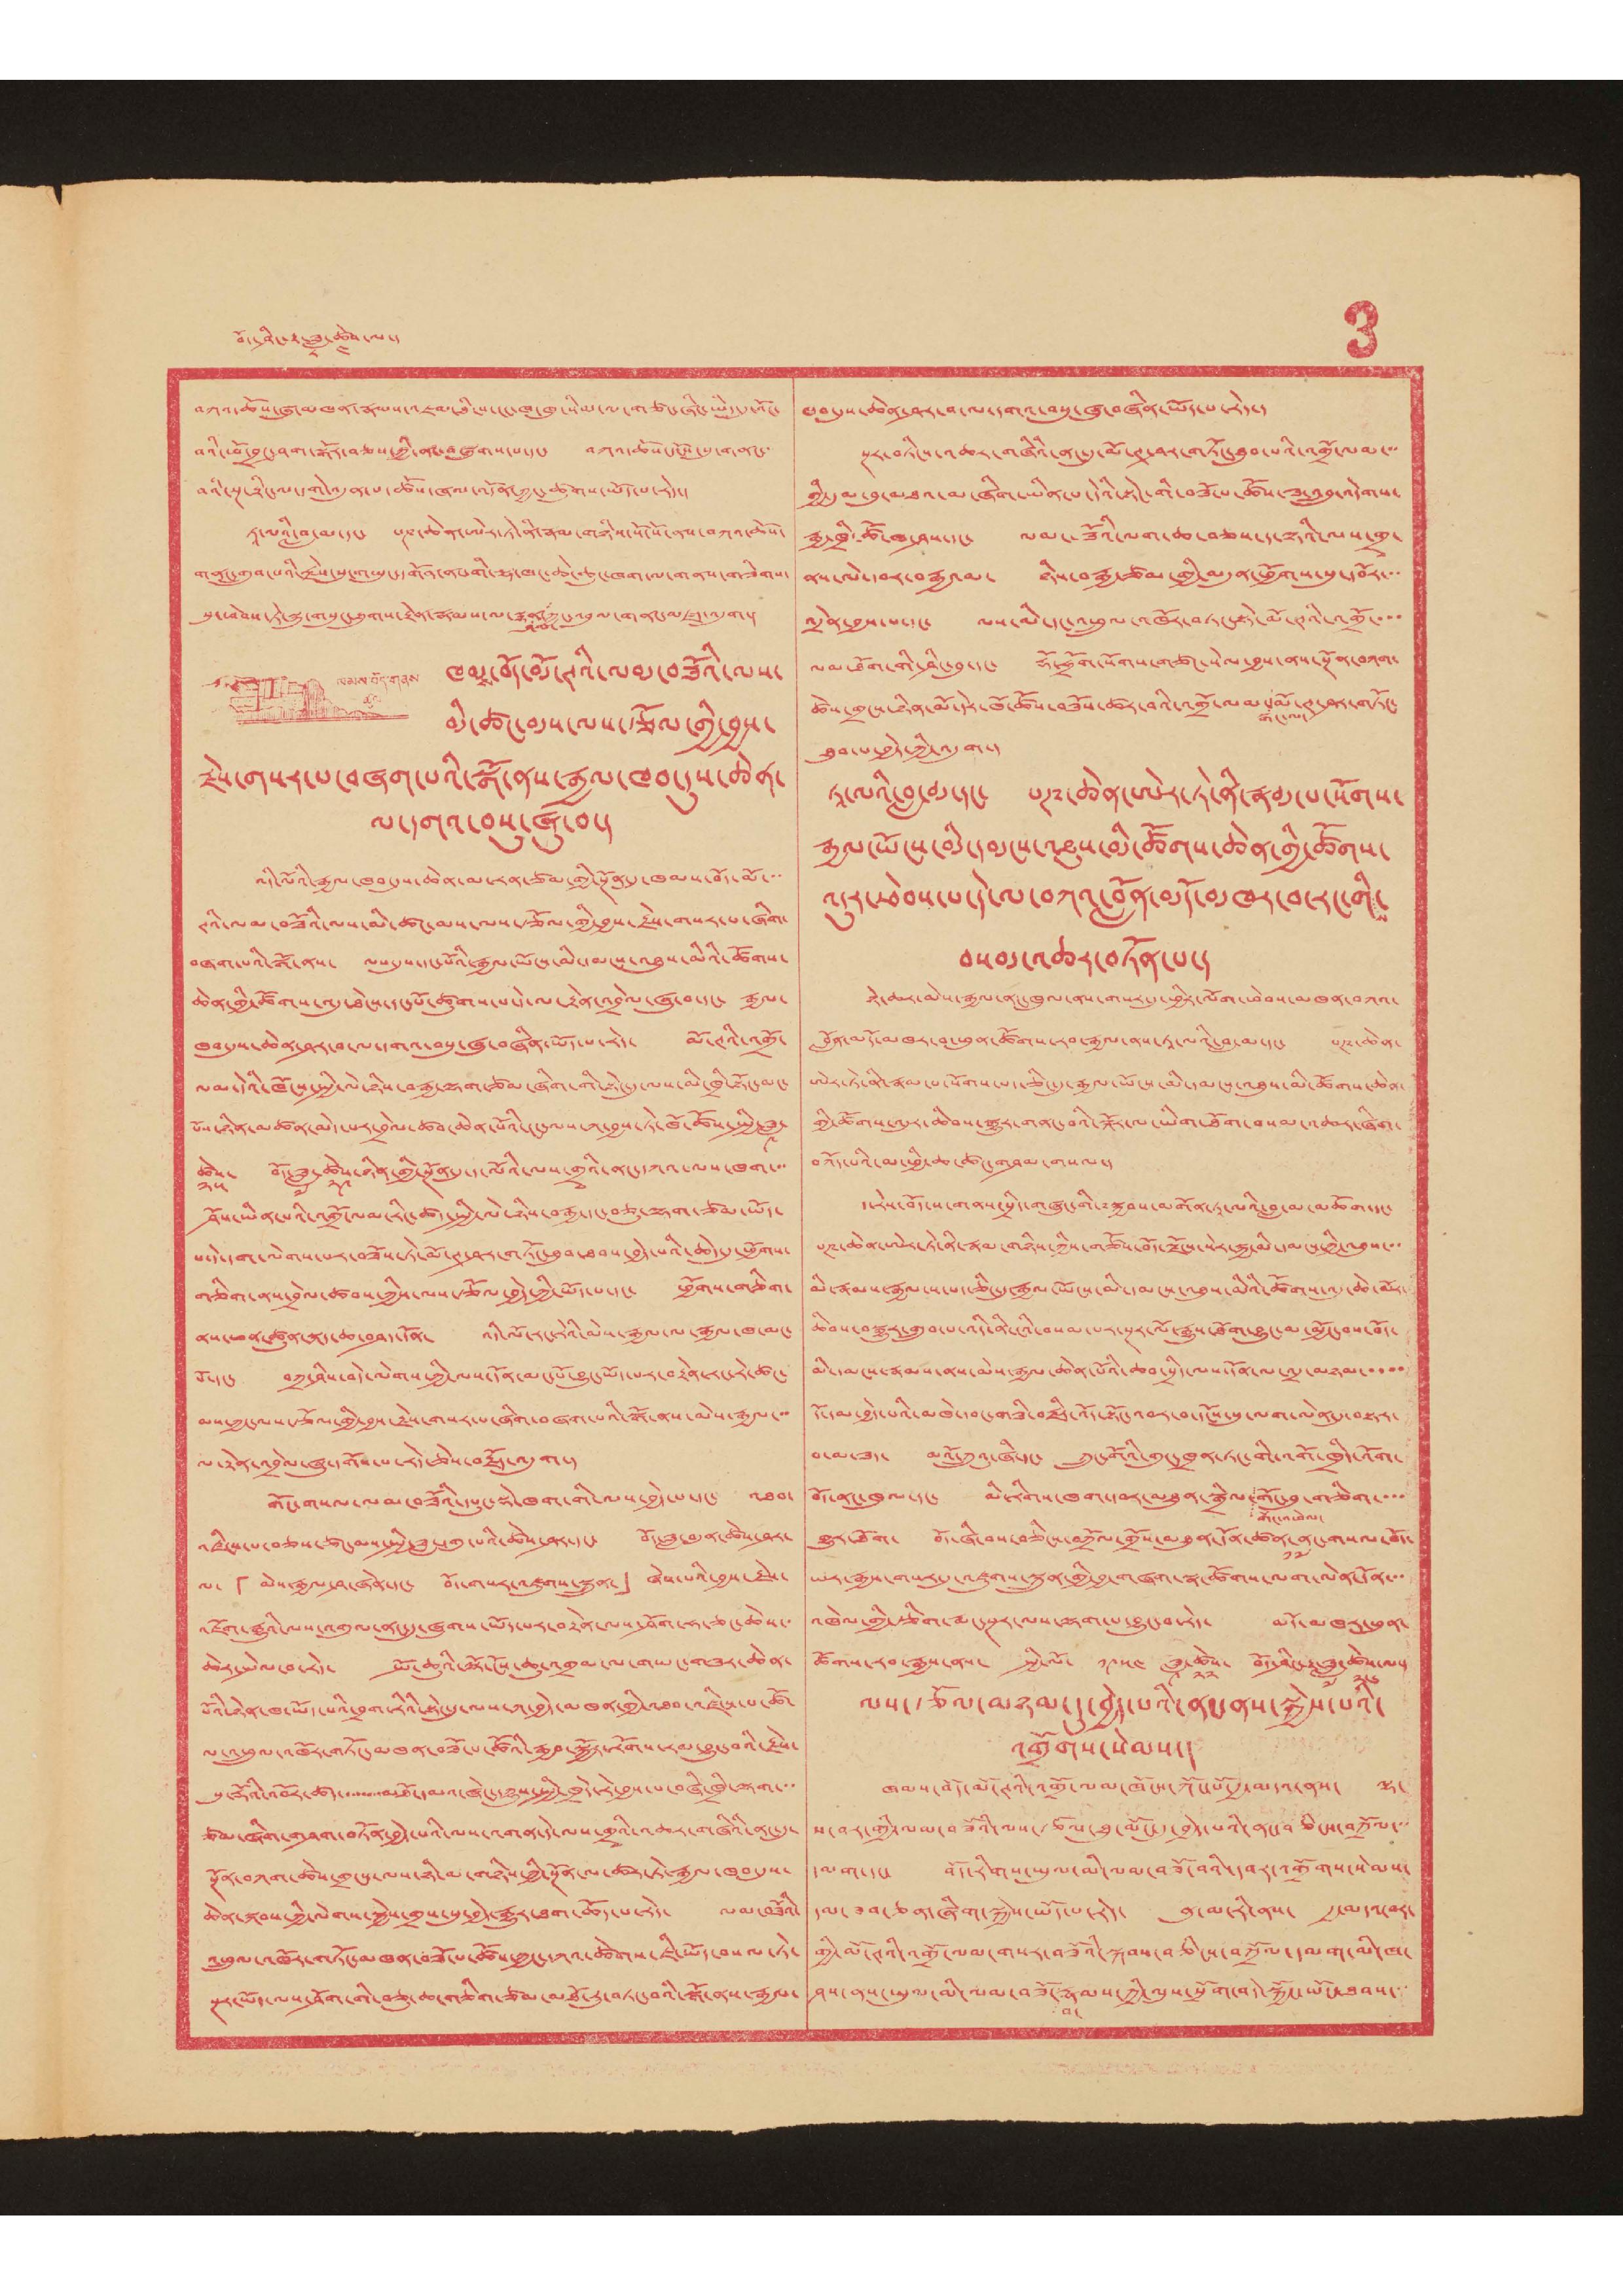བོད་ཤིང་རྟ་ཟླ་
༨
ཚེས་
༤
ལ་། 3
བཀའ་ཆོས་ཞུ་མཁན་རྣམས་འཇམ་ཐིངས་ངང་ཁ་ཁུ་སིམ་ལ་གཙང་ཞིང་ཡིད་དུ་འོང་
བའི་ཕོ་བྲང་ཤག་སྒོར་བཅས་ཀྱི་ནང་བཞུགས་པ་དང་ བཀའ་ཆོས་དངོས་སུ་གནང་
བའི་སྔ་རྟིང་ལ་དགེ་འདུན་པ་ཚོས་ཞལ་འདོན་ཀྱང་ཚུགས་ཡོད་པ་རེད་།
ཏཱ་ལའི་བླ་མ་དང་ པཎ་ཆེན་ཨེར་ཏེ་ནི་རྣམ་གཉིས་སོ་སོ་ནས་བཀའ་ཆོས་
གནང་གྲུབ་པའི་རྗེས་སུ་གཡུང་དགོན་ནང་གི་ལྷ་ཁང་ཆེ་ཆུང་ཁག་ལ་གནས་གཟིགས་
སུ་ཕེབས་ཏེ་སྐུ་གསུང་ཐུགས་རྟེན་རྣམས་ལ་སྙན་
ཤམ་
ཀྱང་འབུལ་གནང་མཛད་འདུག་།
ཁམས་བོད་གནས་
ཚུལ་
ཁམས་བོད་མོ་ཊའི་ལམ་བཟོའི་ལས་
མི་ཚང་མས་ལས་རྩོལ་གྱི་བྱས་
རྗེས་གསར་པ་བཞག་པའི་སྒོ་ནས་རྒྱལ་ཁབ་དུས་ཆེན་
ལ་དགའ་བསུ་ཞུ་བ་།
འདི་ལོའི་རྒྱལ་ཁབ་དུས་ཆེན་མ་རན་ཙམ་གྱི་སྔོན་དུ་ཁམས་བོད་མོ་་་
ཊའི་ལམ་བཟོའི་ལས་མི་ཚང་མས་ལས་རྩོལ་གྱི་བྱས་རྗེས་གསར་པ་ཞིག་
བཞག་པའི་སྒོ་ནས་ ལས་དུས་དང་པོའི་རྒྱལ་ཡོངས་མི་དམངས་འཐུས་མིའི་ཚོགས་
ཆེན་གྱི་ཚོགས་འདུ་ཐེངས་དང་པོ་ཚུགས་པ་དེ་ལ་རྟེན་འབྲེལ་ཞུ་བ་དང་ རྒྱལ་
ཁབ་དུས་ཆེན་ཤར་བ་དགའ་བསུ་ཞུ་བཞིན་ཡོད་པ་རེད་ མོ་ཊའི་འགྲོ་
ལམ་དེའི་ཁོངས་སྤྱི་ལེ་ཉིས་བརྒྱ་ལྷག་ཙམ་ཞིག་གི་སྟེང་དུ་ལས་མི་ཁྲི་སྟོང་མང་
པོས་ཉིན་མཚན་མེད་པར་བྲེལ་ཚབ་ཆེན་པོའི་ངང་ལས་ཀ་བྱས་ཏེ་ཁོ་ཚོས་སྤྱི་ཟླ་
༩
ཚེས་
༢༥
བོད་ཟླ་
༧
ཚེས་
༢༩
ཉིན་གྱི་སྔོན་དུ་ད་ལོའི་ལས་གྲྭའི་ནང་དཀའ་ལས་ཁག་་་
ཤོས་ཡིན་པའི་འགྲོ་ལམ་རིང་ཚད་སྤྱི་ལེ་ཉིས་བརྒྱ་དང་བཅུ་ལྷག་ཙམ་ཡོད་
པ་དེ་དག་ལེགས་པར་བཟོས་ཏེ་མོ་ཊ་ཤར་གཏོང་ཐུབ་ཐབས་བྱེད་པའི་ཆེད་དུ་ཕྱོགས་
གཅིག་ནས་བྲེལ་ཚབས་ཀྱིས་ལས་རྩོལ་བྱེད་ཀྱི་ཡོད་པ་དང་ ཕྱོགས་གཅིག་
ནས་ཕན་ཚུན་ནད་ཆ་བཤད་དོན་ འདི་ལོ་རང་རེའི་མེས་རྒྱལ་ལ་རྒྱལ་ཁ་མང་
པོ་དང་ བཀྲ་ཤིས་བདེ་ལེགས་ཀྱི་ལས་དོན་མང་པོ་བྱུང་ཡོད་པར་བརྟེན་རང་རེ་ཚང་
མས་ཀྱང་ལས་རྩོལ་གྱི་བྱས་རྗེས་གསར་པ་ཞིག་བཞག་པའི་སྒོ་ནས་མེས་རྒྱལ་་་
ལ་རྟེན་འབྲེལ་ཞུ་དགོས་པ་རེད་ཅེས་བརྗོད་འདུག་།
གོང་གསལ་ལམ་བཟོའི་དཔུང་སྡེ་ཁག་གི་ལས་བྱེད་པ་དང་ འཐབ་
འཛིངས་པ་བཅས་ཚང་མས་སྤྱི་ཟླ་དགུ་པའི་ཚེས་ཤར་དང་ བོད་ཟླ་བདུན་ཚེས་ཤར་
ལ་ 「མེས་རྒྱལ་ཤ་ཞེན་དང་ བོད་གསར་འཛུགས་སྐྲུན་」 ཞེས་པའི་བྱས་རྗེས་
འཇོག་རྒྱུའི་ལས་འགུལ་ནང་དུ་ཞུགས་ཡོད་པར་བརྟེན་ལས་ཤོག་ཧ་ཅང་ཆེས་་
ཆེར་སྤེལ་བ་རེད་ སྤོ་ཆུའི་ལྷོ་ངོས་ཆུ་འགྲམ་ལ་གཡང་གཟར་ཆེན་
པོའི་ཉེན་ཁ་ཡོད་པའི་བྲག་རིའི་སྟེང་དུ་ལས་ཀ་བྱེད་མཁན་གྱི་འཐབ་འཛིངས་པ་ཚོ་
ལ་འཕྲུལ་འཁོར་གཏོང་མཁན་བཟོ་པ་ཚོའི་རྒྱབ་སྐྱོར་རོགས་རམ་བྱུང་བའི་རྗེས་
སུ་རྡོའི་འབོར་ཚད་་་་་མཐོ་དམའ་ཞེང་དཀྱུས་སྤྱི་ཁྲེད་རེ་བྱས་པ་བཞི་ཁྲི་ལྷག་་་
ཙམ་ཞིག་གཤག་བཏོན་བྱེད་པའི་ལས་འགན་དེ་ལས་གྲྭའི་འཆར་གཞིའི་ནང་དུ་
སྔོན་བཀག་ཚེས་གྲངས་ལས་ཉི་མ་གཉིས་ཀྱི་སྔོན་ལ་ཚར་ཏེ་རྒྱལ་ཁབ་དུས་
ཆེན་སྐབས་ཀྱི་ལེགས་སྐྱེས་གྲས་སུ་བྱེད་རྒྱུར་ཐག་ཆོད་པ་རེད་ ལམ་བཟོའི་
འཕྲུལ་འཁོར་གཏོང་མཁན་བཟོ་པ་ཚོས་ཀྱང་དཀའ་ཚེགས་ཇི་ཡོད་བསལ་ཏེ་
སྔར་ཡོད་ལས་ཤོག་གི་བཅུ་ཆ་གཅིག་ཙམ་མཐོ་རུ་བཏང་བའི་སྒོ་ནས་རྒྱལ་
ཁབ་དུས་ཆེན་ཤར་བ་ལ་དགའ་བསུ་ཞུ་བཞིན་ཡོད་པ་རེད་།
སྔར་བཏིངས་འཆར་གཞིའི་ནང་དུ་མོ་ཊ་ཤར་གཏོང་ཐུབ་པའི་འགྲོ་ལམ་་་
གྱི་དུམ་བུ་མཐའ་མ་ཞིག་ཡིན་པ་དེའི་སྟེང་གི་བཟོ་པ་ཚོས་ཟ་འབྲུ་འདེགས་
རྒྱ་ཁྲི་ཚོ་ཁ་ཤས་དང་ ལམ་ཟོའི་ལག་ཆ་བཅས་ད་ལྟའི་ལས་གྲྭ་
ནས་ལེ་དབར་བརྒྱའམ་ ཉིས་བརྒྱ་ཙམ་གྱི་མདུན་ཕྱོགས་སུ་དབོར་་་
འདྲེན་བྱས་པ་དང་ ལས་མི་དང་འཕྲུལ་འཁོར་བཏང་སྟེ་མོ་ཊའི་འགྲོ་་་་
ལམ་ཐོག་གི་ཤིང་བུ་དང་ རྡོ་ཧྲོག་སོགས་གཙང་སེལ་བྱས་ནས་སྔོན་བཀག་
ཚེས་གྲངས་ཉིན་མོ་དེར་ཁོ་ཚོས་བཟོས་ཚར་བའི་འགྲོ་ལམ་
སྒང་ལ་
མོ་ཊ་ཤར་གཏོང་
ཐུབ་པ་བྱེད་ཀྱི་འདུག་།
ཏཱ་ལའི་བླ་མ་དང་ པཎ་ཆེན་ཨེར་ཏེ་ནི་རྣམ་པ་སོགས་
རྒྱལ་ཡོངས་མི་དམངས་འཐུས་མི་ཚོགས་ཆེན་གྱི་ཚོགས་
འདུར་ཕེབས་པ་དེ་ལ་བཀའ་བློན་མདོ་མཁར་བ་རང་གི་
བསམ་འཆར་བཏོན་པ་།
ཉེ་ཆར་མེས་རྒྱལ་ནང་ཁུལ་ནས་གསར་དུ་ཕྱིར་ལོག་ཕེབས་མཁན་བཀའ་
བློན་མདོ་མཁར་བ་ཕུན་ཚོགས་རབ་རྒྱལ་ནས་ཏཱ་ལའི་བླ་མ་དང་ པཎ་ཆེན་
ཨེར་ཏེ་ནི་རྣམ་པ་སོགས་པད་ཅིང་དུ་རྒྱ་ཡོངས་མི་དམངས་འཐུས་མི་ཚོགས་ཆེན་
གྱི་ཚོགས་འདུར་ཆིབས་སྒྱུར་གནང་བའི་སྐོར་ལ་ཡིག་ཐོག་བསམ་འཆར་ཞིག་
བཀོད་པའི་མ་ཕྱི་ཆ་ཚང་གཤམ་གསལ་།
ད་རེས་བོད་ས་གནས་སྲིད་གཞུང་གི་༸སྐྱབས་མགོན་ཏཱ་ལའི་བླ་མ་མཆོག་དང་
པཎ་ཆེན་ཨེར་ཏེ་ནི་རྣམ་གཉིས་ཀྱིས་གཙོས་བོད་ལྗོངས་སེར་སྐྱ་མི་དམངས་ཀྱི་འཐུས་་་
མི་རྣམས་རྒྱལ་ས་པད་ཅིང་དུ་རྒྱལ་ཡོངས་མི་དམངས་འཐུས་མིའི་ཚོགས་འདུ་ཆེ་མོར་
ཆིབས་བསྒྱུར་གྲུབ་པ་འདི་ནི་ངའི་བསམ་པར་སྔར་ལོ་རྒྱུས་ཐོག་བྱུང་མ་མྱོང་བས་བོད་
མི་དམངས་རྣམས་ནས་མེས་རྒྱལ་ཆེན་པོའི་ཆབ་སྲིད་ལས་དོན་ལ་འདྲ་མཉམ་་་་་
དོ་དམ་བྱེད་པའི་མཁེ་དབང་གཟི་བརྗིད་སྟོང་འབར་བ་དངོས་སུ་ལག་ལེན་དུ་བསྟར་
བ་མ་ཟད་ མའོ་ཀྲུའུ་ཞི་དང་ ཀྲུང་གོའི་གུང་ཁྲན་ཏང་གི་འགོ་ཁྲིད་འོག་
བོད་ནང་ཁུལ་དང་ མི་རིགས་ཁག་དབར་མཐུན་སྒྲིལ་
གོང་འཕེལ་
གོང་བུ་གཅིག་་་་
གྱུར་ཐོག་ བོད་ཞི་བས་བཅིངས་བཀྲོལ་གྲོས་མཐུན་དོན་ཚན་
༡༧
ནང་གསལ་བོད་
ཡར་རྒྱས་གསར་དུ་འཛུགས་སྐྲུན་གྱི་བྱ་གཞག་སྣ་ཚོགས་ལག་ལེན་དོན་་་
འཁེལ་གྱི་རྩིག་རྨང་སྔར་ལས་ལྷག་པ་བྱུང་བ་རེད་ མདོ་མཁར་ཕུན་
ཚོགས་རབ་རྒྱས་ནས་ སྤྱི་ལོ་ ༡༩༥༤ ཟླ་
༩
ཚེས་
༢༢
བོད་ཤིང་རྟ་ཟླ་
༧
ཚེས་
༢༦
ལ་།
ལས་རྩོལ་མཉམ་དུ་བྱེད་པའི་ནང་ནས་སྐྱེས་པའི་
འགྲོགས་སེམས་།
ཁམས་བོད་མོ་ཊའི་འགྲོ་ལམ་ཁོངས་ཀོང་པོ་རྒྱ་མདའ་ནས་་ ལྷ་
ས་བར་གྱི་ལམ་བཟོའི་ལས་རྩོལ་ཐུང་མོང་དུ་བྱེད་པའི་ནང་བཅིངས་བཀྲོལ་་་
དམག་དང་ བོད་རིགས་ཡུལ་མི་ལམ་བཟོ་བའི་དབར་འགྲོགས་སེམས་
དམ་ཟབ་ཅན་ཞིག་སྐྱེས་ཡོད་པ་རེད་ ནུ་མ་རི་ནས་ རྒྱ་མདའ་བར་
གྱི་མོ་ཊའི་འགྲོ་ལམ་གསར་བཟོའི་སྐབས་བཅིངས་བཀྲོལ་དམག་མི་ཁ་
ཤས་ནས་ཡུལ་མི་ལམ་བཟོ་
བ་
རྣམས་ཀྱི་ལུས་སྲོག་བདེ་སྐྱོང་ཡོང་ཐབས་་་
